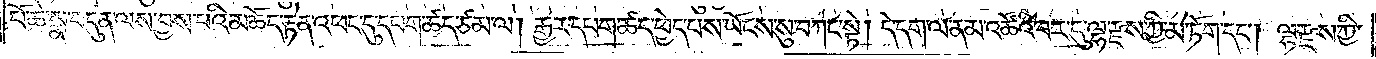པོ་ཆེ་སྣ་བདུན་ལས་བྱས་པའི་མཆོད་རྟེན་འཕང་དུ་དཔག་ཚད་ཙམ་ལ། རྒྱར་དཔག་ཚད་ཕྱེད་པས་ཡོངས་སུ་བཀང་སྟེ། དེ་དག་ལ་ནམ་འཚོའི་བར་དུ་ལྷ་རྫས་ཀྱི་མེ་ཏོག་དང༌། ལྷ་རྫས་ཀྱི་
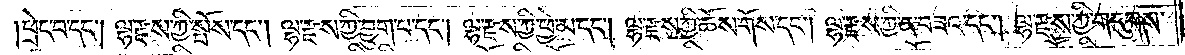ཕྲེང་བ་དང༌། ལྷ་རྫས་ཀྱི་སྤོས་དང༌། ལྷ་རྫས་ཀྱི་བྱུག་པ་དང༌། ལྷ་རྫས་ཀྱི་ཕྱེ་མ་དང༌། ལྷ་རྫས་ཀྱི་ཆོས་གོས་དང༌། ལྷ་རྫས་ཀྱི་ན་བཟའ་དང༌། ལྷ་རྫས་ཀྱི་གདུགས་
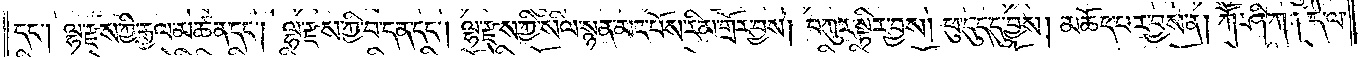དང༌། ལྷ་རྫས་ཀྱི་རྒྱལ་མཚན་དང༌། ལྷ་རྫས་ཀྱི་བ་དན་དང༌། ལྷ་རྫས་ཀྱི་སིལ་སྙན་མང་པོས་རིམ་གྲོར་བྱས། བཀུར་སྟིར་བྱས། ཕུ་དུད་དུ་བྱས། མཆོད་པར་བྱས་ན། ཀཽ་ཤི་ཀ། དེ་ལ་
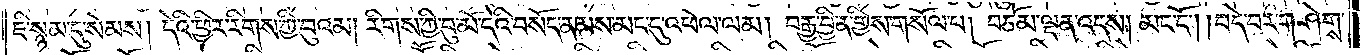ཇི་སྙམ་དུ་སེམས། དེའི་ཕྱིར་རིགས་ཀྱི་བུའམ། རིགས་ཀྱི་བུ་མོ་དེའི་བསོད་ནམས་མང་དུ་འཕེལ་ལམ། བརྒྱ་བྱིན་གྱིས་གསོལ་བ། བཅོམ་ལྡན་འདས། མང་ངོ༌། །བདེ་བར་གཤེགས་
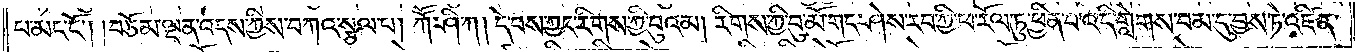པ་མང་ངོ༌། །བཅོམ་ལྡན་འདས་ཀྱིས་བཀའ་སྩལ་པ། ཀཽ་ཤི་ཀ། དེ་བས་ཀྱང་རིགས་ཀྱི་བུའམ། རིགས་ཀྱི་བུ་མོ་གང་ཤེས་རབ་ཀྱི་ཕ་རོལ་ཏུ་ཕྱིན་པ་འདི་གླེགས་བམ་དུ་བྱས་ཏེ་འཛིན་
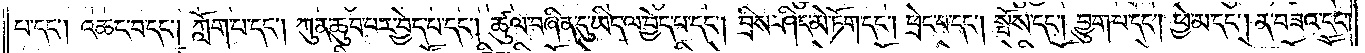པ་དང༌། འཆང་བ་དང༌། ཀློག་པ་དང༌། ཀུན་ཆུབ་པར་བྱེད་པ་དང༌། ཚུལ་བཞིན་དུ་ཡིད་ལ་བྱེད་པ་དང༌། བྲིས་ཤིང་མེ་ཏོག་དང༌། ཕྲེང་བ་དང༌། སྤོས་དང༌། བྱུག་པ་དང༌། ཕྱེ་མ་དང༌། ན་བཟའ་དང༌།
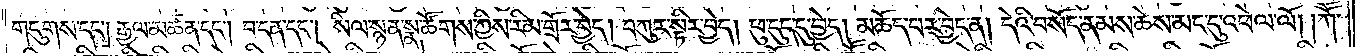གདུགས་དང༌། རྒྱལ་མཚན་དང༌། བ་དན་དང༌། སིལ་སྙན་སྣ་ཚོགས་ཀྱིས་རིམ་གྲོར་བྱེད། བཀུར་སྟིར་བྱེད། ཕུ་དུད་དུ་བྱེད། མཆོད་པར་བྱེད་ན། དེའི་བསོད་ནམས་ཆེས་མང་དུ་འཕེལ་ལོ། །ཀཽ་
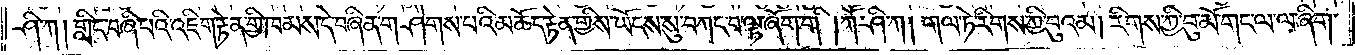ཤི་ཀ། གླིང་བཞི་པའི་འཇིག་རྟེན་གྱི་ཁམས་དེ་བཞིན་གཤེགས་པའི་མཆོད་རྟེན་གྱིས་ཡོངས་སུ་བཀང་བ་ལྟ་ཞོག་གི །ཀཽ་ཤི་ཀ། གལ་ཏེ་རིགས་ཀྱི་བུའམ། རིགས་ཀྱི་བུ་མོ་གང་ལ་ལ་ཞིག་
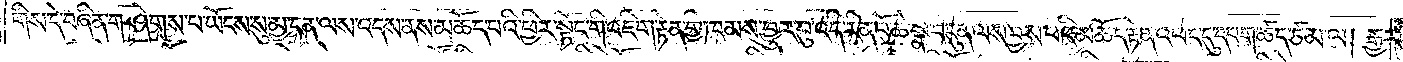གིས་དེ་བཞིན་གཤེགས་པ་ཡོངས་སུ་མྱ་ངན་ལས་འདས་ནས་མཆོད་པའི་ཕྱིར་སྟོང་གི་འཇིག་རྟེན་གྱི་ཁམས་བྱུར་བུ་འདི་རིན་པོ་ཆེ་སྣ་བདུན་ལས་བྱས་པའི་མཆོད་རྟེན་འཕང་དུ་དཔག་ཚད་ཙམ་ལ། རྒྱར་
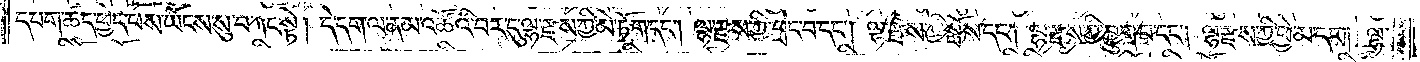དཔག་ཚད་ཕྱེད་པས་ཡོངས་སུ་བཀང་སྟེ། དེ་དག་ལ་ནམ་འཚོའི་བར་དུ་ལྷ་རྫས་ཀྱི་མེ་ཏོག་དང༌། ལྷ་རྫས་ཀྱི་ཕྲེང་བ་དང༌། ལྷ་རྫས་ཀྱི་སྤོས་དང༌། ལྷ་རྫས་ཀྱི་བྱུག་པ་དང༌། ལྷ་རྫས་ཀྱི་ཕྱེ་མ་དང༌། ལྷ་
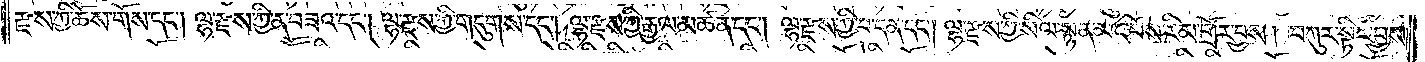རྫས་ཀྱི་ཆོས་གོས་དང༌། ལྷ་རྫས་ཀྱི་ན་བཟའ་དང༌། ལྷ་རྫས་ཀྱི་གདུགས་དང༌། ལྷ་རྫས་ཀྱི་རྒྱལ་མཚན་དང༌། ལྷ་རྫས་ཀྱི་བ་དན་དང༌། ལྷ་རྫས་ཀྱི་སིལ་སྙན་མང་པོས་རིམ་གྲོར་བྱས། བཀུར་སྟིར་བྱས།
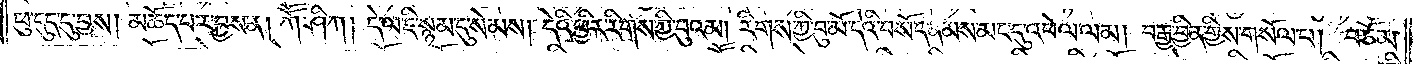ཕུ་དུད་དུ་བྱས། མཆོད་པར་བྱས་ན། ཀཽ་ཤི་ཀ། དེ་ལ་ཇི་སྙམ་དུ་སེམས། དེའི་ཕྱིར་རིགས་ཀྱི་བུའམ། རིགས་ཀྱི་བུ་མོ་དེའི་བསོད་ནམས་མང་དུ་འཕེལ་ལམ། བརྒྱ་བྱིན་གྱིས་གསོལ་བ། བཅོམ་
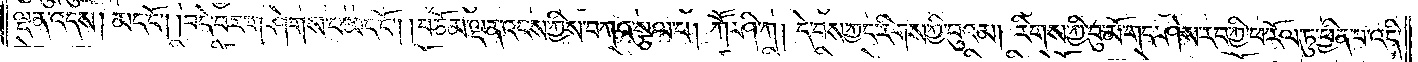ལྡན་འདས། མང་ངོ༌། །བདེ་བར་གཤེགས་པ་མང་ངོ༌། །བཅོམ་ལྡན་འདས་ཀྱིས་བཀའ་སྩལ་པ། ཀཽ་ཤི་ཀ། དེ་བས་ཀྱང་རིགས་ཀྱི་བུ་འམ། རིགས་ཀྱི་བུ་མོ་གང་ཤེས་རབ་ཀྱི་ཕ་རོལ་ཏུ་ཕྱིན་པ་འདི་
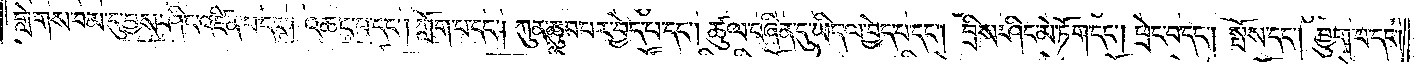གླེགས་བམ་དུ་བྱས་ཤིང༌། འཛིན་པ་དང༌། འཆང་བ་དང༌། ཀློག་པ་དང༌། ཀུན་ཆུབ་པར་བྱེད་པ་དང༌། ཚུལ་བཞིན་དུ་ཡིད་ལ་བྱེད་པ་དང༌། བྲིས་ཤིང་མེ་ཏོག་དང༌། ཕྲེང་བ་དང༌། སྤོས་དང༌། བྱུག་པ་དང༌།
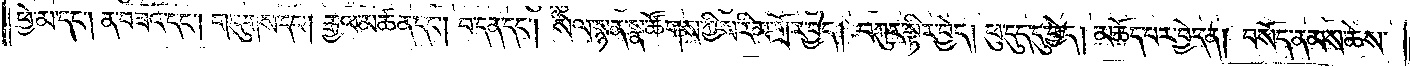ཕྱེ་མ་དང༌། ན་བཟའ་དང༌། གདུགས་དང༌། རྒྱལ་མཚན་དང༌། བ་དན་དང༌། སིལ་སྙན་སྣ་ཚོགས་ཀྱིས་རིམ་གྲོར་བྱེད། བཀུར་སྟིར་བྱེད། ཕུ་དུད་དུ་བྱེད། མཆོད་པར་བྱེད་ན། བསོད་ནམས་ཆེས་
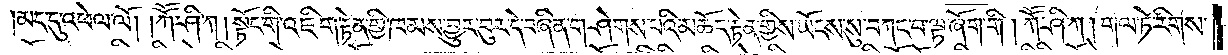མང་དུ་འཕེལ་ལོ༎ ཀཽ་ཤི་ཀ། སྟོང་གི་འཇིག་རྟེན་གྱི་ཁམས་བྱུར་བུར་དེ་བཞིན་གཤེགས་པའི་མཆོད་རྟེན་གྱིས་ཡོངས་སུ་བཀང་བ་ལྟ་ཞོག་གི །ཀཽ་ཤི་ཀ། གལ་ཏེ་རིགས་
